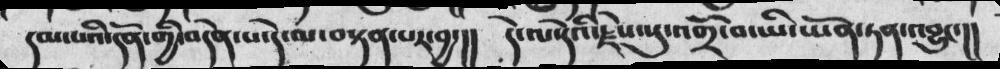དམ་པའི་དོན་གྱི་བདེན་པ་དེ་ལ་བསྟན་པར་བྱ་།།  དེ་ལ་དེའི་རྗེས་སུ་འགྲོ་བ་ཡི་ཡོན་ཏན་འབྱུང་།།
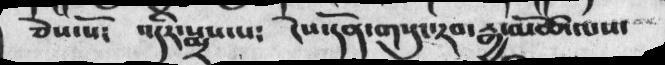ཅེས་སོ༴  འདིར་སྨྲས་པ༴  ངེས་དོན་གསུང་རབ་རྒྱ་མཚོ་ལས་
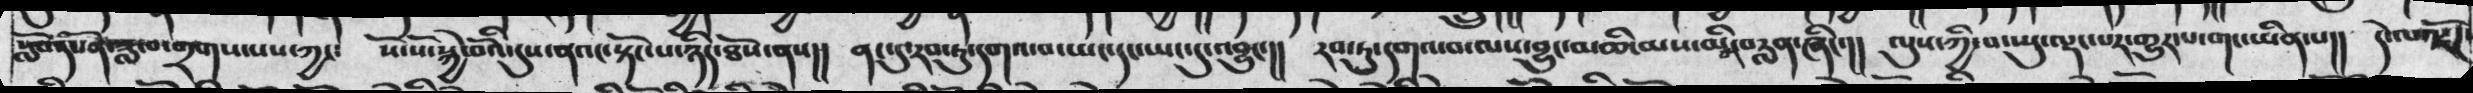སློབ་དཔོན་ཟླ་བ་གྲགས་པས་ཀྱང༴   སོ་སོ་སྐྱེ་བོའི་དུས་ནའང་སྟོང་པ་ཉིད་ཐོས་ནས།།   ནང་དུ་རབ་ཏུ་དགའ་བ་ཡང་དང་ཡང་དུ་འབྱུང་།།  རབ་ཏུ་དགའ་བ་ལས་བྱུང་མཆི་མས་མིག་བརླན་ཞིང་།།   ལུས་ཀྱི་བ་སྤུ་ལྡང་པར་གྱུར་པ་གང་ཡིན་པ།།   དེ་ལ་རྫོཌ་
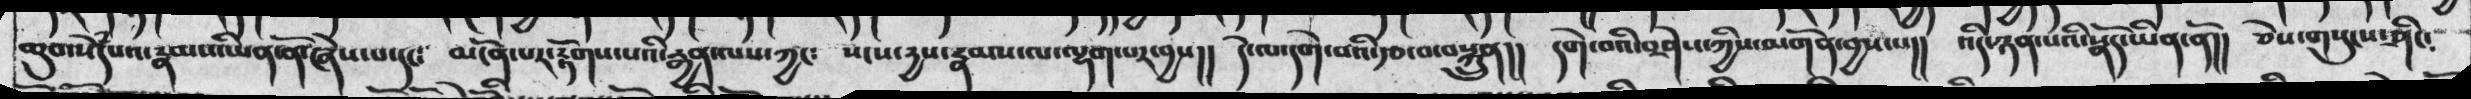ཆུབ་སེཾདཔའ་རྣམས་ཡིན་ནོ་ཞེས་པ་དང༴  མངོན་པར་རྟོགས་པའི་རྒྱན་ལས་ཀྱང༴   སངས་དྱས་རྣམས་ལ་ལྷག་པར་བྱས།།   དེ་ལ་དགེ་བའི་རྩ་བ་བསྐྲུན།།  དགེ་བའི་བཤེས་ཀྱི་མགོན་བྱས་པ།།  འདི་ཉན་པའི་སྣོད་ཡིན་ནོ།།  ཅེས་གསུངས་ཤིང་
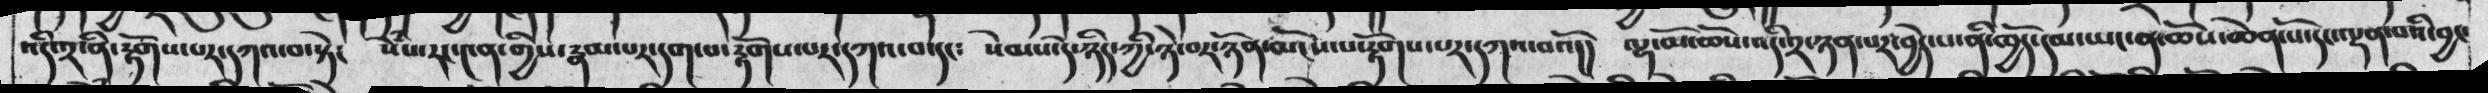འདི་༢་ནི་རྟོགས་པར་དཀའ་བ་སྟེ་  སེཾས་རང་༤ན་གྱིས་རྣམ་པར་དག་པ་རྟོགས་པར་དཀའ་བ་དང༴  སེམས་དེ་ཉིད་ཀྱི་ཉེ་བར་ཉོན་མོང་པ་རྟོགས་པར་དཀའ་བའོ།།  ལྷ་མོ་ཆོས་འདི་༢་སྟན་པར་བྱེད་པ་ནི་ཁྱོད་དམ་ཡང་ན་ཆོས་ཆེན་པོ་དང་ལྡན་བའི་བྱང་
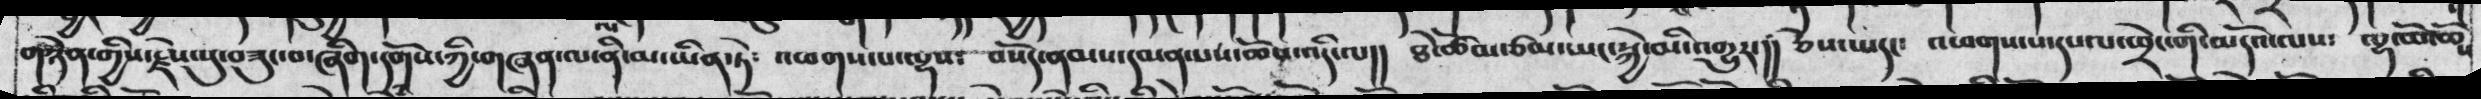གཉེན་གྱིས་རྗེས་སུ་བཟུང་བ་ཞིག་དགོས་ཀྱི་གཞན་ལ་ནི་མ་ཡིན་ཏེ༴  འཕགས་པ་ལྷས༴  བསོད་ནམས་དམན་པས་ཆོས་འདི་ལ།།  ཐེ་ཚོམ་ཙམ་ཡང་སྐྱེ་མི་འགྱུར་།།  ཅེས་་པར༴  འཕགས་པ་དཔལ་ཕྲེང་གི་མདོའ་ལ༴  ལྷ་མོ་ཆོ
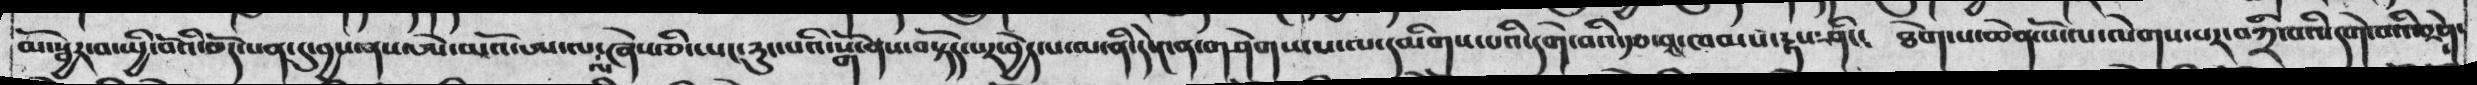མོ་སྦྱར་བ་ཡྱི་བོའི་ཅོ་པན་དུ་བྱས་ནས་ཨེ་མ་འོ་ཨ་ལ་ལ་ཞེས་ཅིང་ཡང་ཉུང་པའི་སྒོ་ནས་བསྟོད་པར་བྱེད་པ་ལ་ནི་དེ་༤ན་གཤེགས་པ་ལ་དམིགས་པའི་དགེ་བའི་རྩ་བས་ཁམས་རྟས་ཤིང༴    ཐེག་པ་ཆེན་པོ་ལ་ལེགས་པར་བཀྲི་བའི་དགེ་བའི་བཤེས་
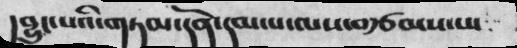།བྱུང་པའི་གཏམ་དོན་དམ་པ་ལས་བརྩམས་པ་
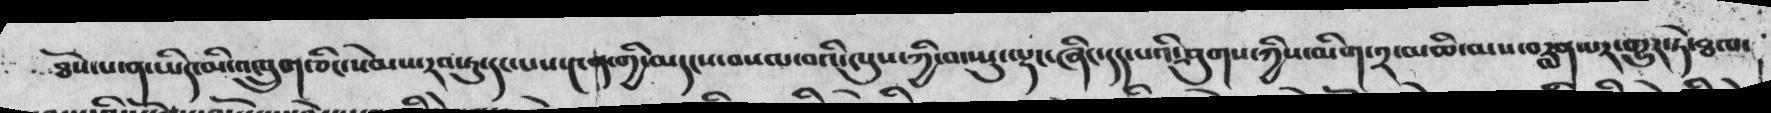ཐོས་པ་ན་ཡིད་མི་འཁྲུག་ཅིང་སེམས་རབ་ཏུ་དང་པས་༤ན་གྱི་མདངས་བསམ་བའི་ལུས་ཀྱི་བ་སྤུ་ལྡང་ཞིང་དད་པའི་ཤུགས་ཀྱིས་མིག་༢་མཆི་མས་བརླན་པར་གྱུར་ཏེ་ཐལ་
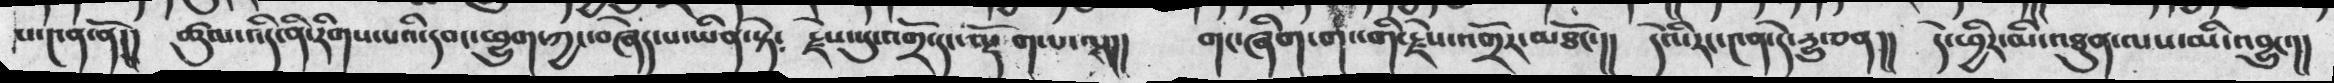པ་༤ན་ནོ།།  ཚུལ་འདི་ནི་རིགས་པའི་དབང་ཕྱུག་ཀྱང་བཞེད་པ་ཡིན་སྟེ༴  རྗེས་སུ་འགྲོ་དང་ལྡོག་པ་ལ།།  གང་ཞིག་གང་གི་རྗེས་འགྲོར་མཐོང་།།  དེའི་རང་༤ན་དེ་རྱུ་ཅན།།   དེ་ཕྱིར་མི་འཐུན་ལས་མི་འབྱུང་།།
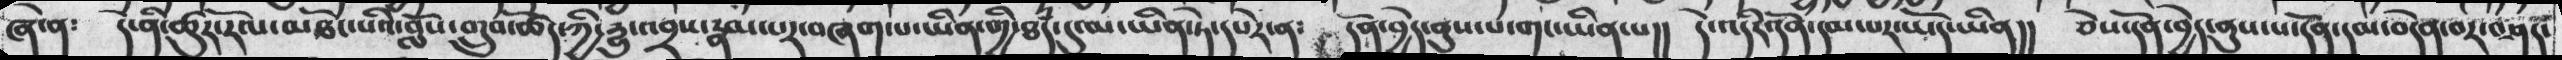ཞེ་ན་  དེ་ནི་ཚུར་རོལ་མཐོང་པའི་བློས་གྲུབ་ཚོད་ཀྱི་རྱུ་འབྲས་རྣམ་པར་བཞག་པ་ཡིན་གྱི་ཐཾད་དུ་མ་ཡིན་ཏེ་དཔེར་ན་  དོན་བྱེད་ནུས་པ་གང་ཡིན་པ།།  དེ་འདིར་དོན་དམ་པར་ཡོད་ཡིན།།  ཅེས་དོན་བྱེད་ནུས་པ་དོན་དམ་བདེན་བར་་བཤད
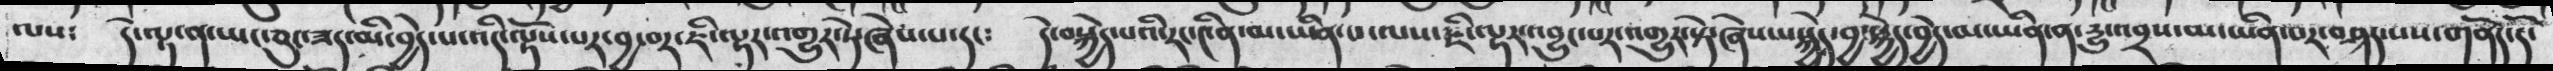ལས༴  དེ་ལྟ་ན་ཡང་ཅུང་ཟད་མི་བྱེད་པ་འདི་ལྟོས་པར་བྱ་བར་ཇི་ལྟར་འགྱུར་ཏེ་ཞེས་པ་དང༴  དེ་བསྐྱེད་པའི་རང་༤ིན་མ་ཡིན་པ་ལས་ཇི་ལྟར་བྱུང་པར་འགྱུར་སྟེ་ཞེས་པ་སྐྱེད་བྱ་སྐྱེད་བྱེད་མ་ཡིན་ན་རྱུ་འབྲས་མ་ཡིན་བར་བཤད་པས་གནོད་དོ་
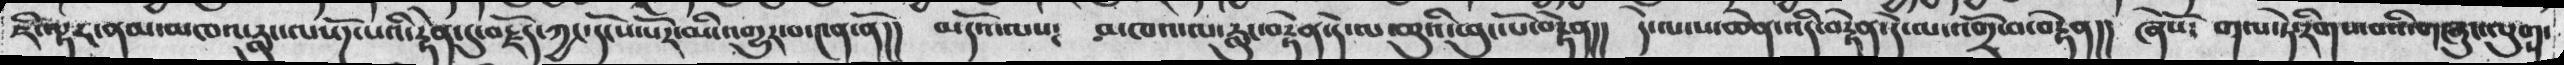ཇི་ལྟར་ནམ་མཁའ་རླུང་ལསོཌ་པའི་རྟེན་དུ་བརྗོད་ཀྱང་དངོས་པོར་མི་འགྱུར་བ་༤ན་ནོ།།  མདོའ་ལས༴   མཁའ་ལ་རླུང་བརྟེན་དེ་ལ་ཆུའི་ཕུང་པོ་བརྟེན།།  དེ་ལ་ས་ཆེན་འདི་བརྟེན་དེ་ལ་འགྲོ་བ་བརྟེན།།   ཞེསོ༴   གལ་ཏེ་རིགས་པའི་གཞུང་ལུགས་
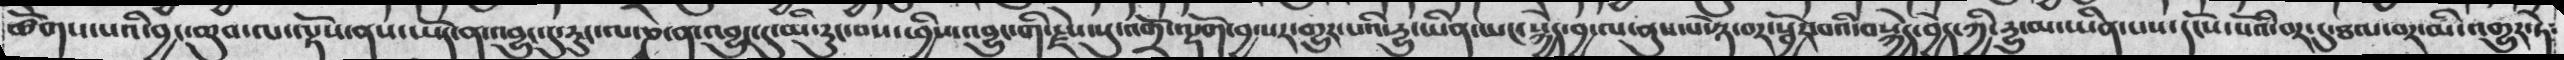ཚོགས་པའི་བྱང་ཆུབ་ལ་ལྟོས་ནས་ཡོད་ན་འབྱུང་དུ་རུང་ལ་ཎ་ན་འབྱུང་དུ་མི་རུང་བས་ཕྱི་ས་འབྱུང་གི་རྗེས་སུ་འགྲོ་ལྡོག་བྱ་པར་གྱུར་པའི་རྱུ་ཡིན་ཡང་སྐྱེད་བྱ་ལ་ནུས་སོ་སྙཾ་བར་སྦྱོར་བའི་བསྐྱེད་བྱེད་ཀྱི་རྱུ་མ་ཡིན་པས་དངོས་པོའི་ལྟ་དུ་ཐལ་བར་མི་འགྱུར་ཏེ༴
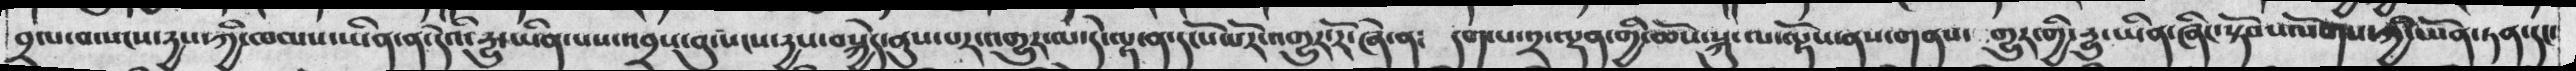བྲལ་བ་སངས་རྱས་ཀྱི་ཁམས་ཡིན་ན་དེའི་རྱུ་ཡིན་པས་འབྲས་བུ་སངས་དྱས་བསྐྱེད་ནུས་པར་འགྱུར་ལ་དེ་ལྟ་ན་དངོས་པོར་འགྱུར་རོ་ཞེ་ན༴  དག་པ་༢་ལྡན་གྱི་ཆོས་སྐུ་ལ་ལྟོས་ནས་གནས་གྱུར་གྱི་རྱུ་ཡིན་ཞིང་སྟོབས་སོགས་ཀྱི་ཡོན་ཏན་དང་
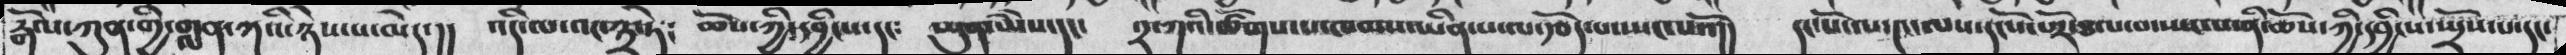སྒོ་ཀུན་གྱི་གླན་ཀའི་ཉེས་པ་མེད་།།  འདི་ལ་འང་༣་ཏེ༴  ཆོས་ཀྱི་དབྱིངས་དང༴  བདུན་ཡེེས་དང་  ༢་ཀའི་ཚོགས་པ་ཁམས་ཡིན་པ་ལ་རྩོད་པསྤང་པའོ།།  དངཔོ་ལ་༤་ལས་དངོས་པོར་ཐལ་བ་སྤང་པ་ནི་ཆོས་ཀྱི་དབྱིངས་སྤྲོས་པ་དང་
